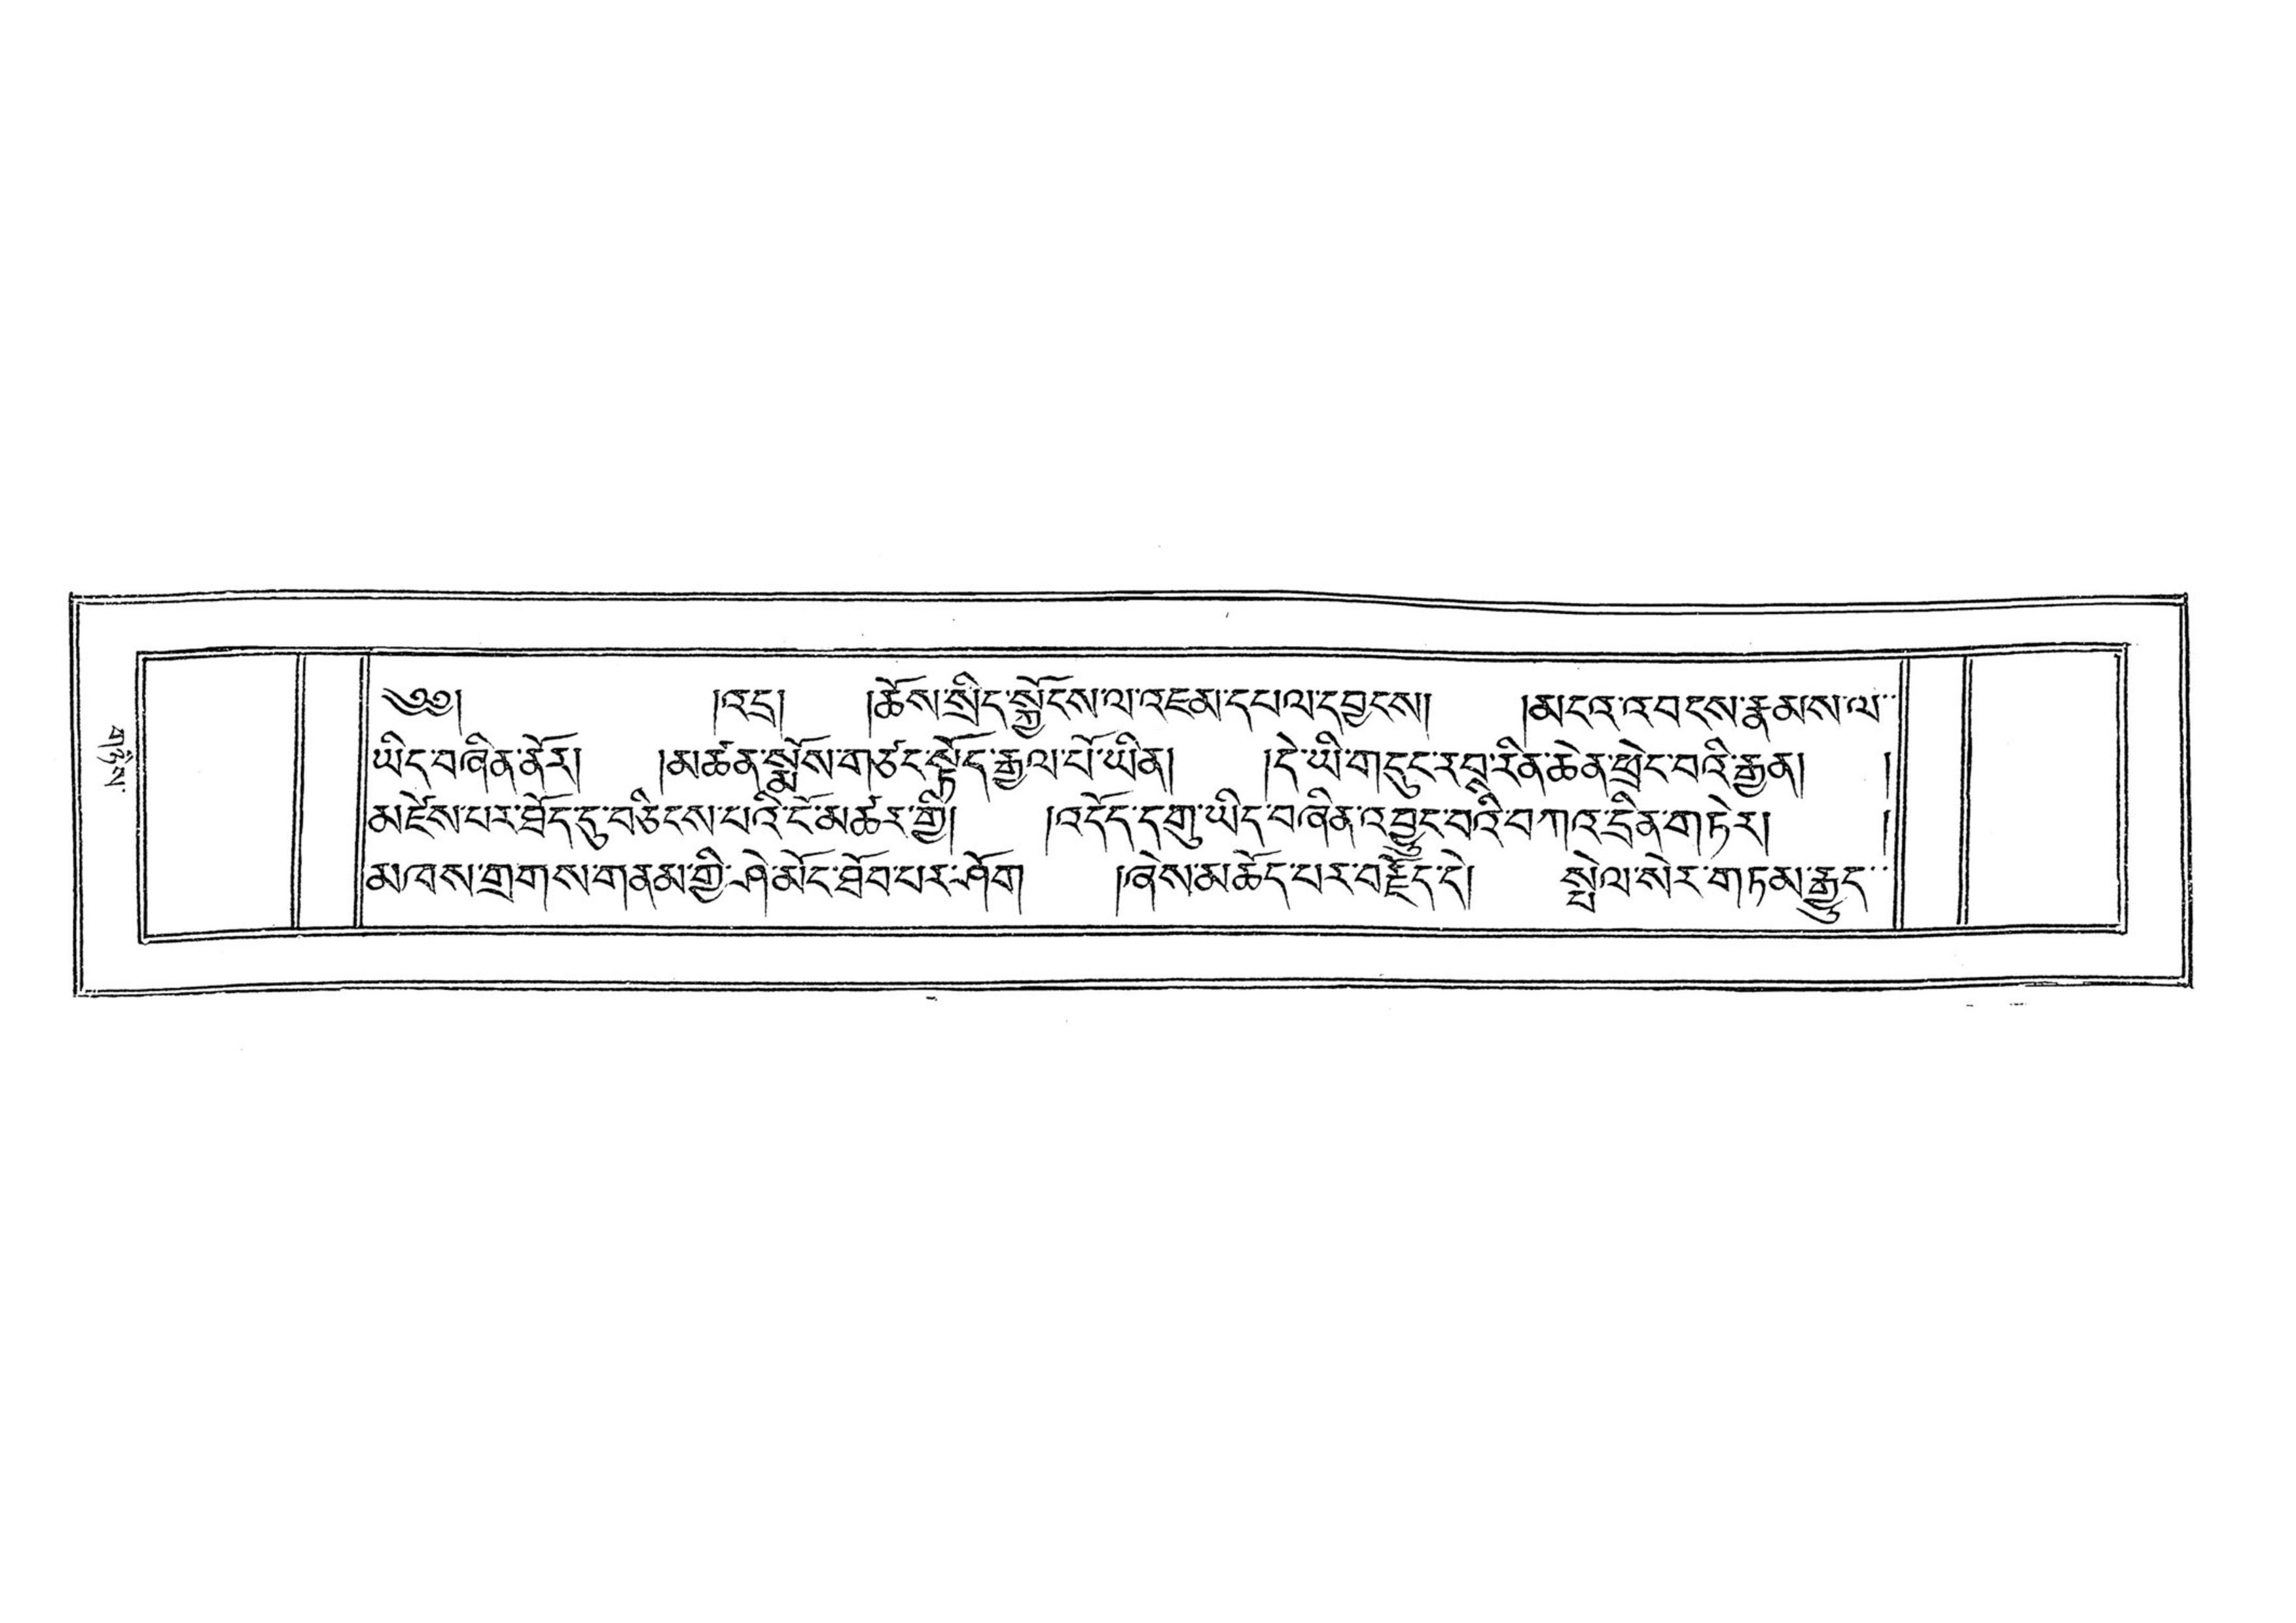གཉིས་
༄༅། །འདྲ། །ཆོས་སྲིད་སྐྱོངས་ལ་འཇམ་དཔལ་དབྱངས། །མངའ་འབངས་རྣམས་ལ་་
ཡིད་བཞིན་ནོར། །མཚན་སྨོས་གཙང་སྟོད་རྒྱལ་པོ་ཡིན། དེ་ཡི་གདུང་རབ་རིན་ཆེན་ཕྲེང་བའི་རྒྱན། །
མཛེས་པར་ཐོད་དུ་བཅིངས་པའི་ངོ་མཚར་གྱི། །འདོད་དགུ་ཡིད་བཞིན་འབྱུང་བའི་བཀའ་དྲིན་གཏེར། །
མཁས་གྲགས་གནམ་གྱི་ཤེ་མོང་ཐོབ་པར་ཤོག །ཞེས་མཆོད་པར་བརྗོད་དེ། སྤེལ་སེར་གཏམ་རྒྱུད་་
